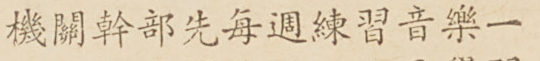機關幹部先每週練習音樂一
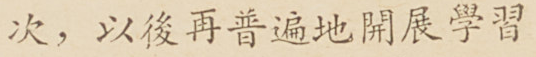次，以後再普遍地開展學習
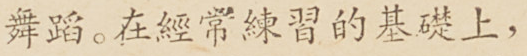舞蹈。在經常練習的基礎上，
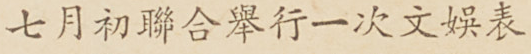七月初聯合舉行一次文娛表
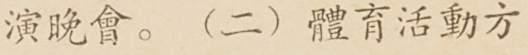演晚會。（二）體育活動方
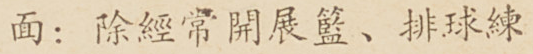面：除經常開展籃、排球練
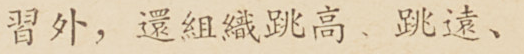習外，還組織跳高、跳遠、
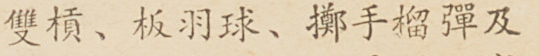雙槓、板羽球、擲手榴彈及
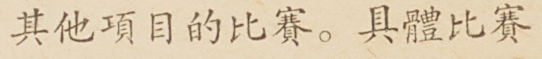其他項目的比賽。具體比賽
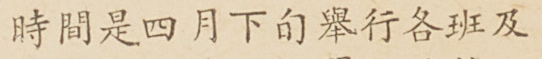時間是四月下旬舉行各班及
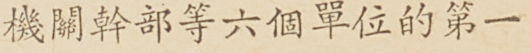機關幹部等六個單位的第一
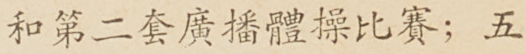和第二套廣播體操比賽；五
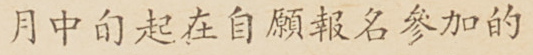月中旬起在自願報名參加的
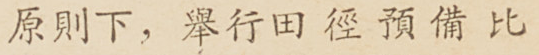原則下，舉行田徑預備比
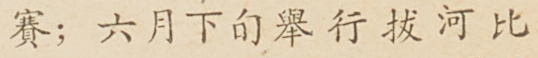賽；六月下旬舉行拔河比
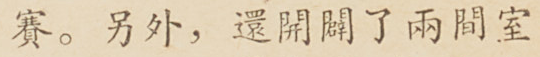賽。另外，還開闢了兩件室
